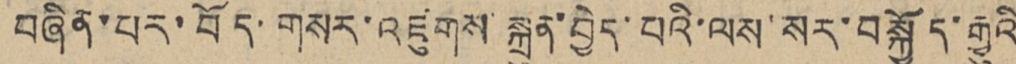བཞིན་པར་བོད་གསར་འཛུགས་སྐྲུན་བྱེད་པའི་ལས་སར་བསྐྱོད་རྒྱུའི
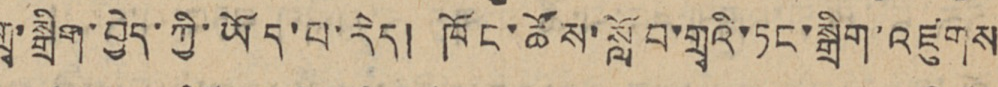གྲྭ་སྒྲིག་བྱེད་ཀྱི་ཡོད་པ་རེད། ཁོང་ཚོས་སློབ་གྲྭའི་ཏང་སྒྲིག་འཛུགས
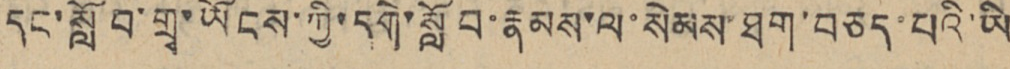དང་སློབ་གྲྭ་ཡོངས་ཀྱི་དགེ་སློབ་རྣམས་ལ་སེམས་ཐག་བཅད་པའི་ཡི
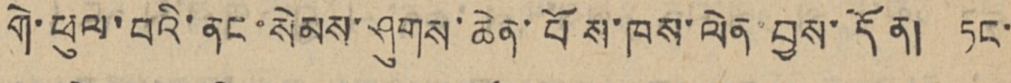གེ་ཕུལ་བའི་ནང་སེམས་ཤུགས་ཆེན་པོས་ཁས་ལེན་བྱས་དོན། ཏང་
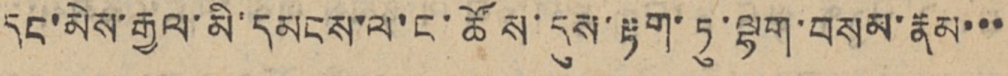དང་མེས་རྒྱལ་མི་དམངས་ལ་ང་ཚོས་དུས་རྟག་ཏུ་ལྷག་བསམ་རྣམ་་་
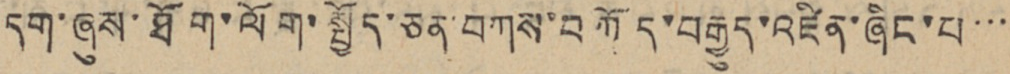དག་ཞུས་ཐོག་ལོག་སྤྱོད་ཅན་བཀས་བཀོད་བརྒྱུད་འཛིན་ཞིང་པ་་་
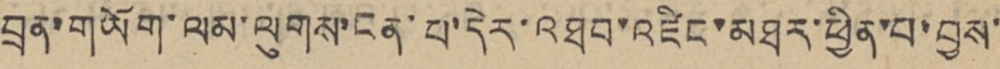བྲན་གཡོག་ལམ་ལུགས་ངན་པ་དེར་འཐབ་འཛིང་མཐར་ཕྱིན་པ་བྱས་
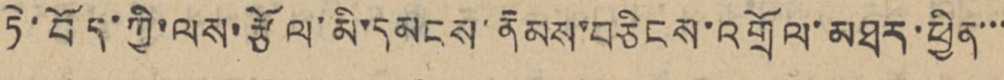ཏེ་བོད་ཀྱི་ལས་རྩོལ་མི་དམངས་རྣམས་བཅིངས་འགྲོལ་མཐར་ཕྱིན་་་
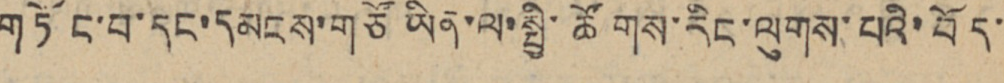གཏོང་བ་དང་དམངས་གཙོ ཡིན་ལ་སྤྱི་ཚོགས་རིང་ལུགས་པའི་བོད་
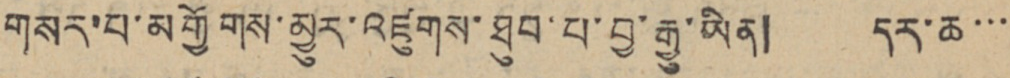གསར་པ་མགྱོགས་མྱུར་འཛུགས་ཐུབ་པ་བྱ་རྒྱུ་ཡིན། དར་ཆ་་་
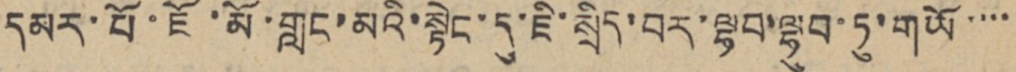དམར་པོ་ཇོ་མོ་གླང་མའི་སྟེང་དུ་ཇི་སྲིད་བར་ལྷབ་ལྷུབ་ཏུ་གཡོ་་་་
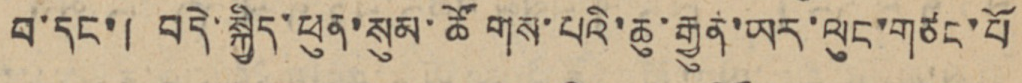བ་དང་། བདེ་སྐྱིད་ཕུན་སུམ་ཚོགས་པའི་ཆུ་རྒྱུན་ཡར་ལུང་གཙང་པོ
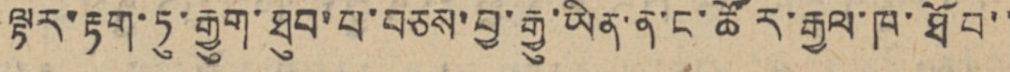ལྟར་རྟག་ཏུ་རྒྱུག་ཐུབ་པ་བཅས་བྱ་རྒྱུ་ཡིན་ན་ང་ཚོར་རྒྱལ་ཁ་ཐོབ་་
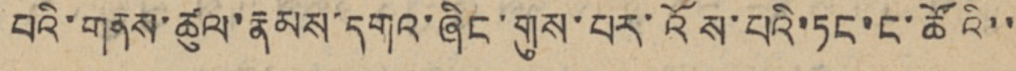པའི་གནས་ཚུལ་རྣམས་དགའ་ཞིང་གུས་པར་འོས་པའི་ཏང་ང་ཚོའི་་
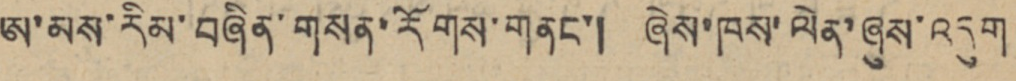ཨ་མས་རིམ་བཞིན་གསན་རོགས་གནང་། ཞེས་ཁས་ལེན་ཞུས་འདུག
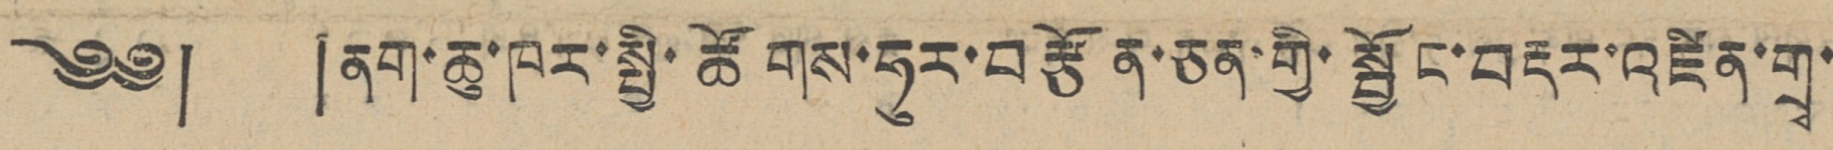༄༅། །ནག་ཆུ་ཁར་སྤྱི་ཚོགས་ཧུར་བརྩོན་ཅན་གྱི་སྦྱོང་བརྡར་འཛིན་གྲྭ་
